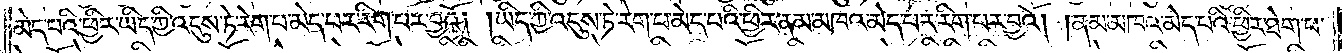མེད་པའི་ཕྱིར་ཡིད་ཀྱི་འདུས་ཏེ་རེག་པ་མེད་པར་རིག་པར་བྱའོ། །ཡིད་ཀྱི་འདུས་ཏེ་རེག་པ་མེད་པའི་ཕྱིར་ནམ་མཁའ་མེད་པར་རིག་པར་བྱའོ། །ནམ་མཁའ་མེད་པའི་ཕྱིར་ཐེག་པ་
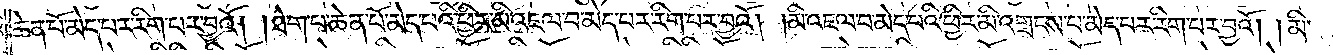ཆེན་པོ་མེད་པར་རིག་པར་བྱའོ། ཐེག་པ་ཆེན་པོ་མེད་པའི་ཕྱིར་མི་འཇལ་བ་མེད་པར་རིག་པར་བྱའོ། །མི་འཇལ་བ་མེད་པའི་ཕྱིར་མི་འགྲངས་པ་མེད་པར་རིག་པར་བྱའོ། །མི་
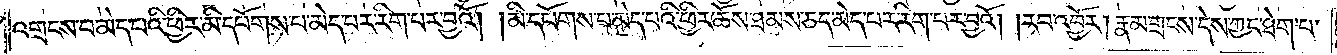འགྲངས་པ་མེད་པའི་ཕྱིར་མི་དཔོགས་པ་མེད་པར་རིག་པར་བྱའོ། །མི་དཔོགས་པ་མེད་པའི་ཕྱིར་ཆོས་ཐམས་ཅད་མེད་པར་རིག་པར་བྱའོ། །རབ་འབྱོར། རྣམ་གྲངས་དེས་ཀྱང་ཐེག་པ་
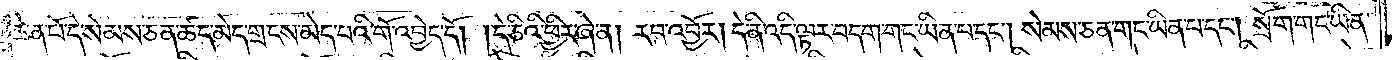ཆེན་པོ་དེ་སེམས་ཅན་ཚད་མེད་གྲངས་མེད་པའི་གོ་འབྱེད་དོ། །དེ་ཅིའི་ཕྱིར་ཞེ་ན། རབ་འབྱོར། དེ་ནི་འདི་ལྟར་བདག་གང་ཡིན་པ་དང༌། སེམས་ཅན་གང་ཡིན་པ་དང༌། སྲོག་གང་ཡིན་
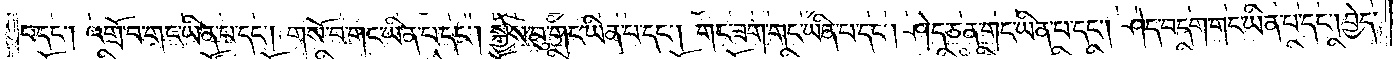པ་དང༌། འགྲོ་བ་གང་ཡིན་པ་དང༌། གསོ་བ་གང་ཡིན་པ་དང༌། སྐྱེས་བུ་གང་ཡིན་པ་དང༌། གང་ཟག་གང་ཡིན་པ་དང༌། ཤེད་ཅན་གང་ཡིན་པ་དང༌། ཤེད་བདག་གང་ཡིན་པ་དང༌། བྱེད་
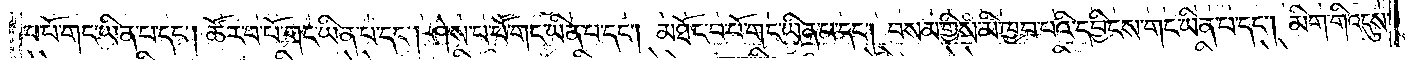པ་པོ་གང་ཡིན་པ་དང༌། ཚོར་བ་པོ་གང་ཡིན་པ་དང༌། ཤེས་པ་པོ་གང་ཡིན་པ་དང༌། མཐོང་བ་པོ་གང་ཡིན་པ་དང༌། བསམ་གྱིས་མི་ཁྱབ་པའི་དབྱིངས་གང་ཡིན་པ་དང༌། མིག་གི་འདུས་
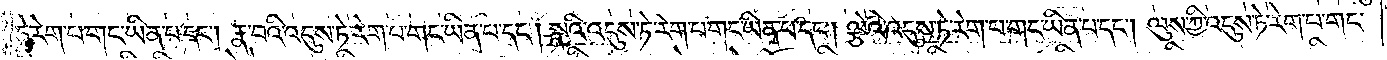ཏེ་རེག་པ་གང་ཡིན་པ་དང༌། རྣ་བའི་འདུས་ཏེ་རེག་པ་གང་ཡིན་པ་དང༌། སྣའི་འདུས་ཏེ་རེག་པ་གང་ཡིན་པ་དང༌། ལྕེའི་འདུས་ཏེ་རེག་པ་གང་ཡིན་པ་དང༌། ལུས་ཀྱི་འདུས་ཏེ་རེག་པ་གང་
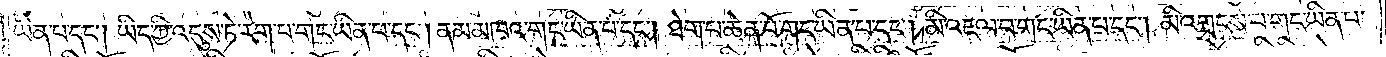ཡིན་པ་དང༌། ཡིད་ཀྱི་འདུས་ཏེ་རེག་པ་གང་ཡིན་པ་དང༌། ནམ་མཁའ་གང་ཡིན་པ་དང༌། ཐེག་པ་ཆེན་པོ་གང་ཡིན་པ་དང༌། མི་འཇལ་བ་གང་ཡིན་པ་དང༌། མི་འགྲངས་པ་གང་ཡིན་པ་
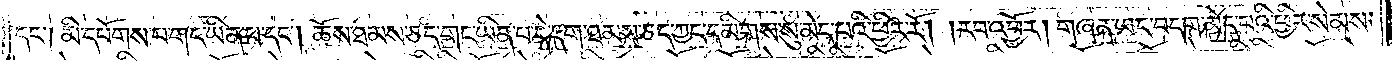དང༌། མི་དཔོགས་པ་གང་ཡིན་པ་དང༌། ཆོས་ཐམས་ཅད་གང་ཡིན་པ་དེ་དག་ཐམས་ཅད་ཀྱང་དམིགས་སུ་མེད་པའི་ཕྱིར་རོ། །རབ་འབྱོར། གཞན་ཡང་བདག་མེད་པའི་ཕྱིར་སེམས་
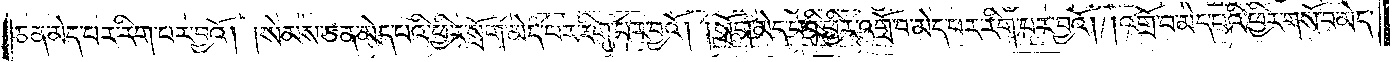ཅན་མེད་པར་རིག་པར་བྱའོ། །སེམས་ཅན་མེད་པའི་ཕྱིར་སྲོག་མེད་པར་རིག་པར་བྱའོ། །སྲོག་མེད་པའི་ཕྱིར་འགྲོ་བ་མེད་པར་རིག་པར་བྱའོ། །འགྲོ་བ་མེད་པའི་ཕྱིར་གསོ་བ་མེད་
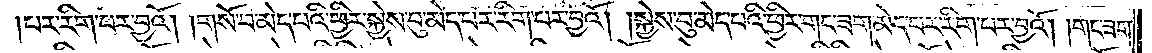པར་རིག་པར་བྱའོ། །གསོ་བ་མེད་པའི་ཕྱིར་སྐྱེས་བུ་མེད་པར་རིག་པར་བྱའོ། །སྐྱེས་བུ་མེད་པའི་ཕྱིར་གང་ཟག་མེད་པར་རིག་པར་བྱའོ། །གང་ཟག་
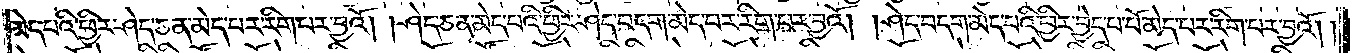མེད་པའི་ཕྱིར་ཤེད་ཅན་མེད་པར་རིག་པར་བྱའོ། །ཤེད་ཅན་མེད་པའི་ཕྱིར་ཤེད་བདག་མེད་པར་རིག་པར་བྱའོ། །ཤེད་བདག་མེད་པའི་ཕྱིར་བྱེད་པ་པོ་མེད་པར་རིག་པར་བྱའོ། །
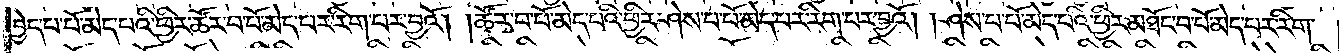བྱེད་པ་པོ་མེད་པའི་ཕྱིར་ཚོར་བ་པོ་མེད་པར་རིག་པར་བྱའོ། །ཚོར་བ་པོ་མེད་པའི་ཕྱིར་ཤེས་པ་པོ་མེད་པར་རིག་པར་བྱའོ། །ཤེས་པ་པོ་མེད་པའི་ཕྱིར་མཐོང་བ་པོ་མེད་པར་རིག་
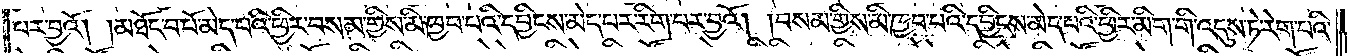པར་བྱའོ། །མཐོང་བ་པོ་མེད་པའི་ཕྱིར་བསམ་གྱིས་མི་ཁྱབ་པའི་དབྱིངས་མེད་པར་རིག་པར་བྱའོ། །བསམ་གྱིས་མི་ཁྱབ་པའི་དབྱིངས་མེད་པའི་ཕྱིར་མིག་གི་འདུས་ཏེ་རེག་པའི་
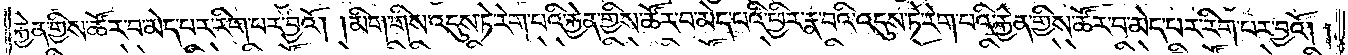རྐྱེན་གྱིས་ཚོར་བ་མེད་པར་རིག་པར་བྱའོ། །མིག་གི་འདུས་ཏེ་རེག་པའི་རྐྱེན་གྱིས་ཚོར་བ་མེད་པའི་ཕྱིར་རྣ་བའི་འདུས་ཏེ་རེག་པའི་རྐྱེན་གྱིས་ཚོར་བ་མེད་པར་རིག་པར་བྱའོ། །
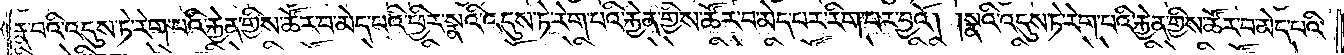རྣ་བའི་འདུས་ཏེ་རེག་པའི་རྐྱེན་གྱིས་ཚོར་བ་མེད་པའི་ཕྱིར་སྣའི་འདུས་ཏེ་རེག་པའི་རྐྱེན་གྱིས་ཚོར་བ་མེད་པར་རིག་པར་བྱའོ། །སྣའི་འདུས་ཏེ་རེག་པའི་རྐྱེན་གྱིས་ཚོར་བ་མེད་པའི་
